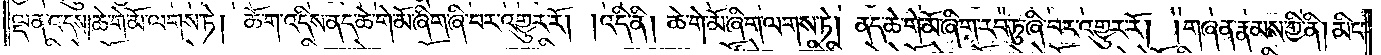ལྡན་འདས་ཆེ་གེ་མོ་ལགས་ཏེ། ཆོ་ག་འདིས་ནད་ཆེ་གེ་མོ་ཞིག་ཞི་བར་འགྱུར་རོ། །འདི་ནི། ཆེ་གེ་མོ་ཞིག་ལགས་ཏེ། ནད་ཆེ་གེ་མོ་ཞིག་རབ་ཏུ་ཞི་བར་འགྱུར་རོ། །གཞན་རྣམས་ཀྱི་ནི། མིང་
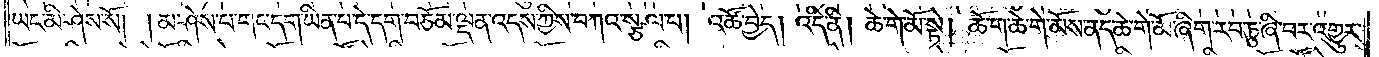ཡང་མི་ཤེས་སོ། །མ་ཤེས་པ་གང་དག་ཡིན་པ་དེ་དག་བཅོམ་ལྡན་འདས་ཀྱིས་བཀའ་སྩལ་པ། འཚོ་བྱེད། འདི་ནི། ཆེ་གེ་མོ་སྟེ། ཆོ་ག་ཆེ་གེ་མོས་ནད་ཆེ་གེ་མོ་ཞིག་རབ་ཏུ་ཞི་བར་འགྱུར་
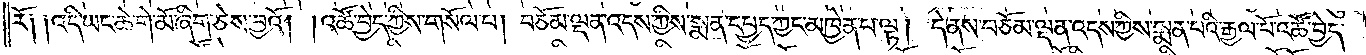རོ༑ ༑འདི་ཡང་ཆེ་གེ་མོ་ཞིག་ཅེས་བྱའོ། །འཚོ་བྱེད་ཀྱིས་གསོལ་པ། བཅོམ་ལྡན་འདས་ཀྱིས་སྨན་དཔྱད་ཀྱང་མཁྱེན་པ་ལྟ། དེ་ནས་བཅོམ་ལྡན་འདས་ཀྱིས་སྨན་པའི་རྒྱལ་པོ་འཚོ་བྱེད་
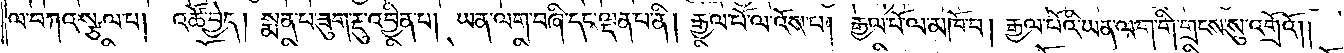ལ་བཀའ་སྩལ་པ། འཚོ་བྱེད། སྨན་པ་ཟུག་རྡུ་འབྱིན་པ། ཡན་ལག་བཞི་དང་ལྡན་པ་ནི། རྒྱལ་པོ་ལ་འོས་པ། རྒྱལ་པོ་ལ་མཁོ་བ། རྒྱལ་པོའི་ཡན་ལག་གི་གྲངས་སུ་འགྲོའོ༎
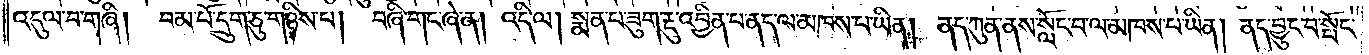འདུལ་བ་གཞི། བམ་པོ་དྲུག་ཅུ་གཉིས་པ། བཞི་གང་ཞེ་ན། འདི་ལ། སྨན་པ་ཟུག་རྡུ་འབྱིན་པ་ནད་ལ་མཁས་པ་ཡིན། ནད་ཀུན་ནས་སློང་བ་ལ་མཁས་པ་ཡིན། ནད་བྱུང་བ་སྤོང་
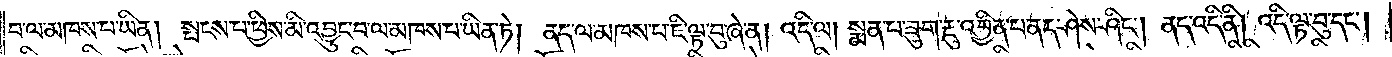བ་ལ་མཁས་པ་ཡིན། སྤངས་པ་ཕྱིས་མི་འབྱུང་བ་ལ་མཁས་པ་ཡིན་ཏེ། ནད་ལ་མཁས་པ་ཇི་ལྟ་བུ་ཞེ་ན། འདི་ལ། སྨན་པ་ཟུག་རྡུ་འབྱིན་པ་ནད་ཤེས་ཤིང༌། ནད་འདི་ནི། འདི་ལྟ་བུ་དང༌།
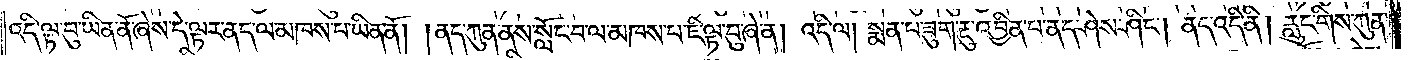འདི་ལྟ་བུ་ཡིན་ནོ་ཞེས་དེ་ལྟར་ནད་ལ་མཁས་པ་ཡིན་ནོ། །ནད་ཀུན་ནས་སློང་བ་ལ་མཁས་པ་ཇི་ལྟ་བུ་ཞེ་ན། འདི་ལ། སྨན་པ་ཟུག་རྡུ་འབྱིན་པ་ནད་ཤེས་ཤིང༌། ནད་འདི་ནི། རླུང་གིས་ཀུན་
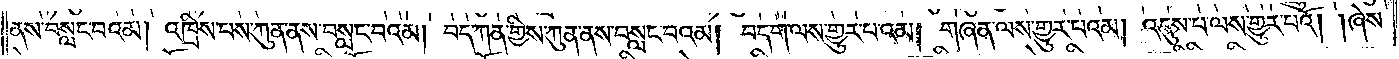ནས་བསླང་བའམ། འཁྲིས་པས་ཀུན་ནས་བསླང་བའམ། བད་ཀན་གྱིས་ཀུན་ནས་བསླང་བའམ། བདག་ལས་གྱུར་པའམ། གཞན་ལས་གྱུར་པའམ། འདུས་པ་ལས་གྱུར་པའོ། །ཞེས་
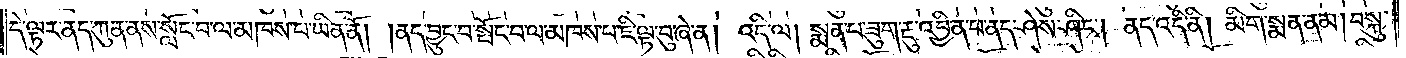དེ་ལྟར་ནད་ཀུན་ནས་སློང་བ་ལ་མཁས་པ་ཡིན་ནོ། །ནད་བྱུང་བ་སྤོང་བ་ལ་མཁས་པ་ཇི་ལྟ་བུ་ཞེ་ན། འདི་ལ། སྨན་པ་ཟུག་རྡུ་འབྱིན་པ་ནད་ཤེས་ཤིང༌། ནད་འདི་ནི། མིག་སྨན་ནམ། བསྐུ་
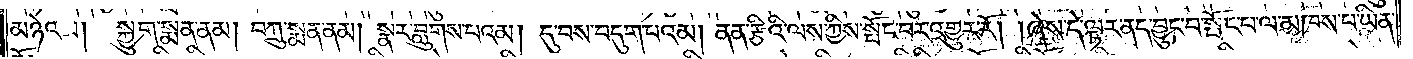མཉེའམ། སྐྱུག་སྨན་ནམ། བཀྲུ་སྨན་ནམ། སྣར་བླུགས་པའམ། དུ་བས་བདུག་པའམ། ནན་རྩིའི་ལས་ཀྱིས་སྤང་བར་འགྱུར་རོ། །ཞེས་དེ་ལྟར་ནད་བྱུང་བ་སྤོང་བ་ལ་མཁས་པ་ཡིན་
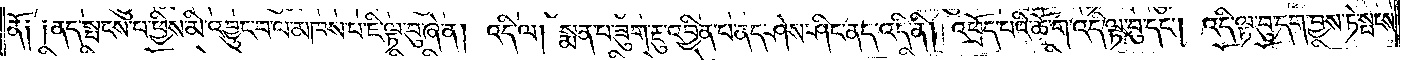ནོ༑ ༑ནད་སྤངས་པ་ཕྱིས་མི་འབྱུང་བ་ལ་མཁས་པ་ཇི་ལྟ་བུ་ཞེ་ན། འདི་ལ། སྨན་པ་ཟུག་རྡུ་འབྱིན་པ་ནད་ཤེས་ཤིང་ནད་འདི་ནི། འཕྲོད་པའི་ཆོ་ག་འདི་ལྟ་བུ་དང༌། འདི་ལྟ་བུ་དག་བྱས་ཏེ་སྤངས་
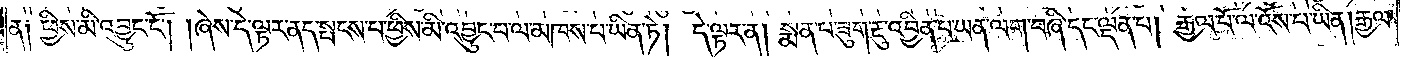ན༑ ཕྱིས་མི་འབྱུང་ངོ༌། །ཞེས་དེ་ལྟར་ནད་སྤངས་པ་ཕྱིས་མི་འབྱུང་བ་ལ་མཁས་པ་ཡིན་ཏེ། དེ་ལྟར་ན། སྨན་པ་ཟུག་རྡུ་འབྱིན་པ་ཡན་ལག་བཞི་དང་ལྡན་པ། རྒྱལ་པོ་ལ་འོས་པ་ཡིན། རྒྱལ་
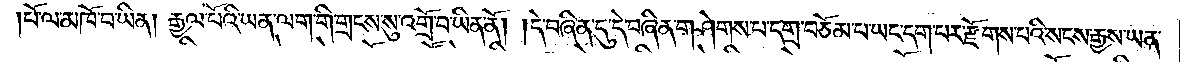།པོ་ལ་མཁོ་བ་ཡིན། རྒྱལ་པོའི་ཡན་ལག་གི་གྲངས་སུ་འགྲོ་བ་ཡིན་ནོ། །དེ་བཞིན་དུ་དེ་བཞིན་གཤེགས་པ་དགྲ་བཅོམ་པ་ཡང་དག་བར་རྫོགས་པའི་སངས་རྒྱས་ཡན་
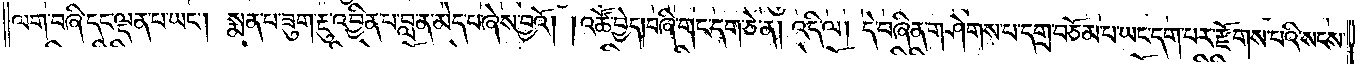ལག་བཞི་དང་ལྡན་པ་ཡང༌། སྨན་པ་ཟུག་རྔུ་འབྱིན་པ་བླ་ན་མེད་པ་ཞེས་བྱའོ། །འཚོ་བྱེད། བཞི་གང་དག་ཅེ་ན། འདི་ལ། དེ་བཞིན་གཤེགས་པ་དགྲ་བཅོམ་པ་ཡང་དག་པར་རྫོགས་པའི་སངས་
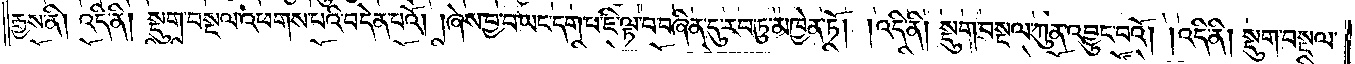རྒྱས་ནི། འདི་ནི། སྡུག་བསྔལ་འཕགས་པའི་བདེན་པའོ། །ཞེས་བྱ་བ་ཡང་དག་པ་ཇི་ལྟ་བ་བཞིན་དུ་རབ་ཏུ་མཁྱེན་ཏོ། །འདི་ནི། སྡུག་བསྔལ་ཀུན་འབྱུང་བའོ། །འདི་ནི། སྡུག་བསྔལ་
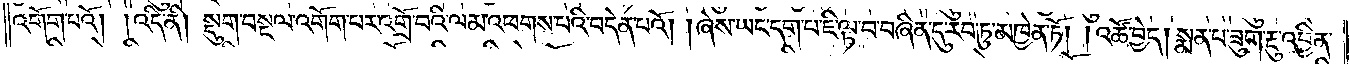འགོག་པའོ། །འདི་ནི། སྡུག་བསྔལ་འགོག་པར་འགྲོ་བའི་ལམ་འཕགས་པའི་བདེན་པའོ། །ཞེས་ཡང་དག་པ་ཇི་ལྟ་བ་བཞིན་དུ་རབ་ཏུ་མཁྱེན་ཏོ། །འཚོ་བྱེད། སྨན་པ་ཟུག་རྔུ་འབྱིན་
